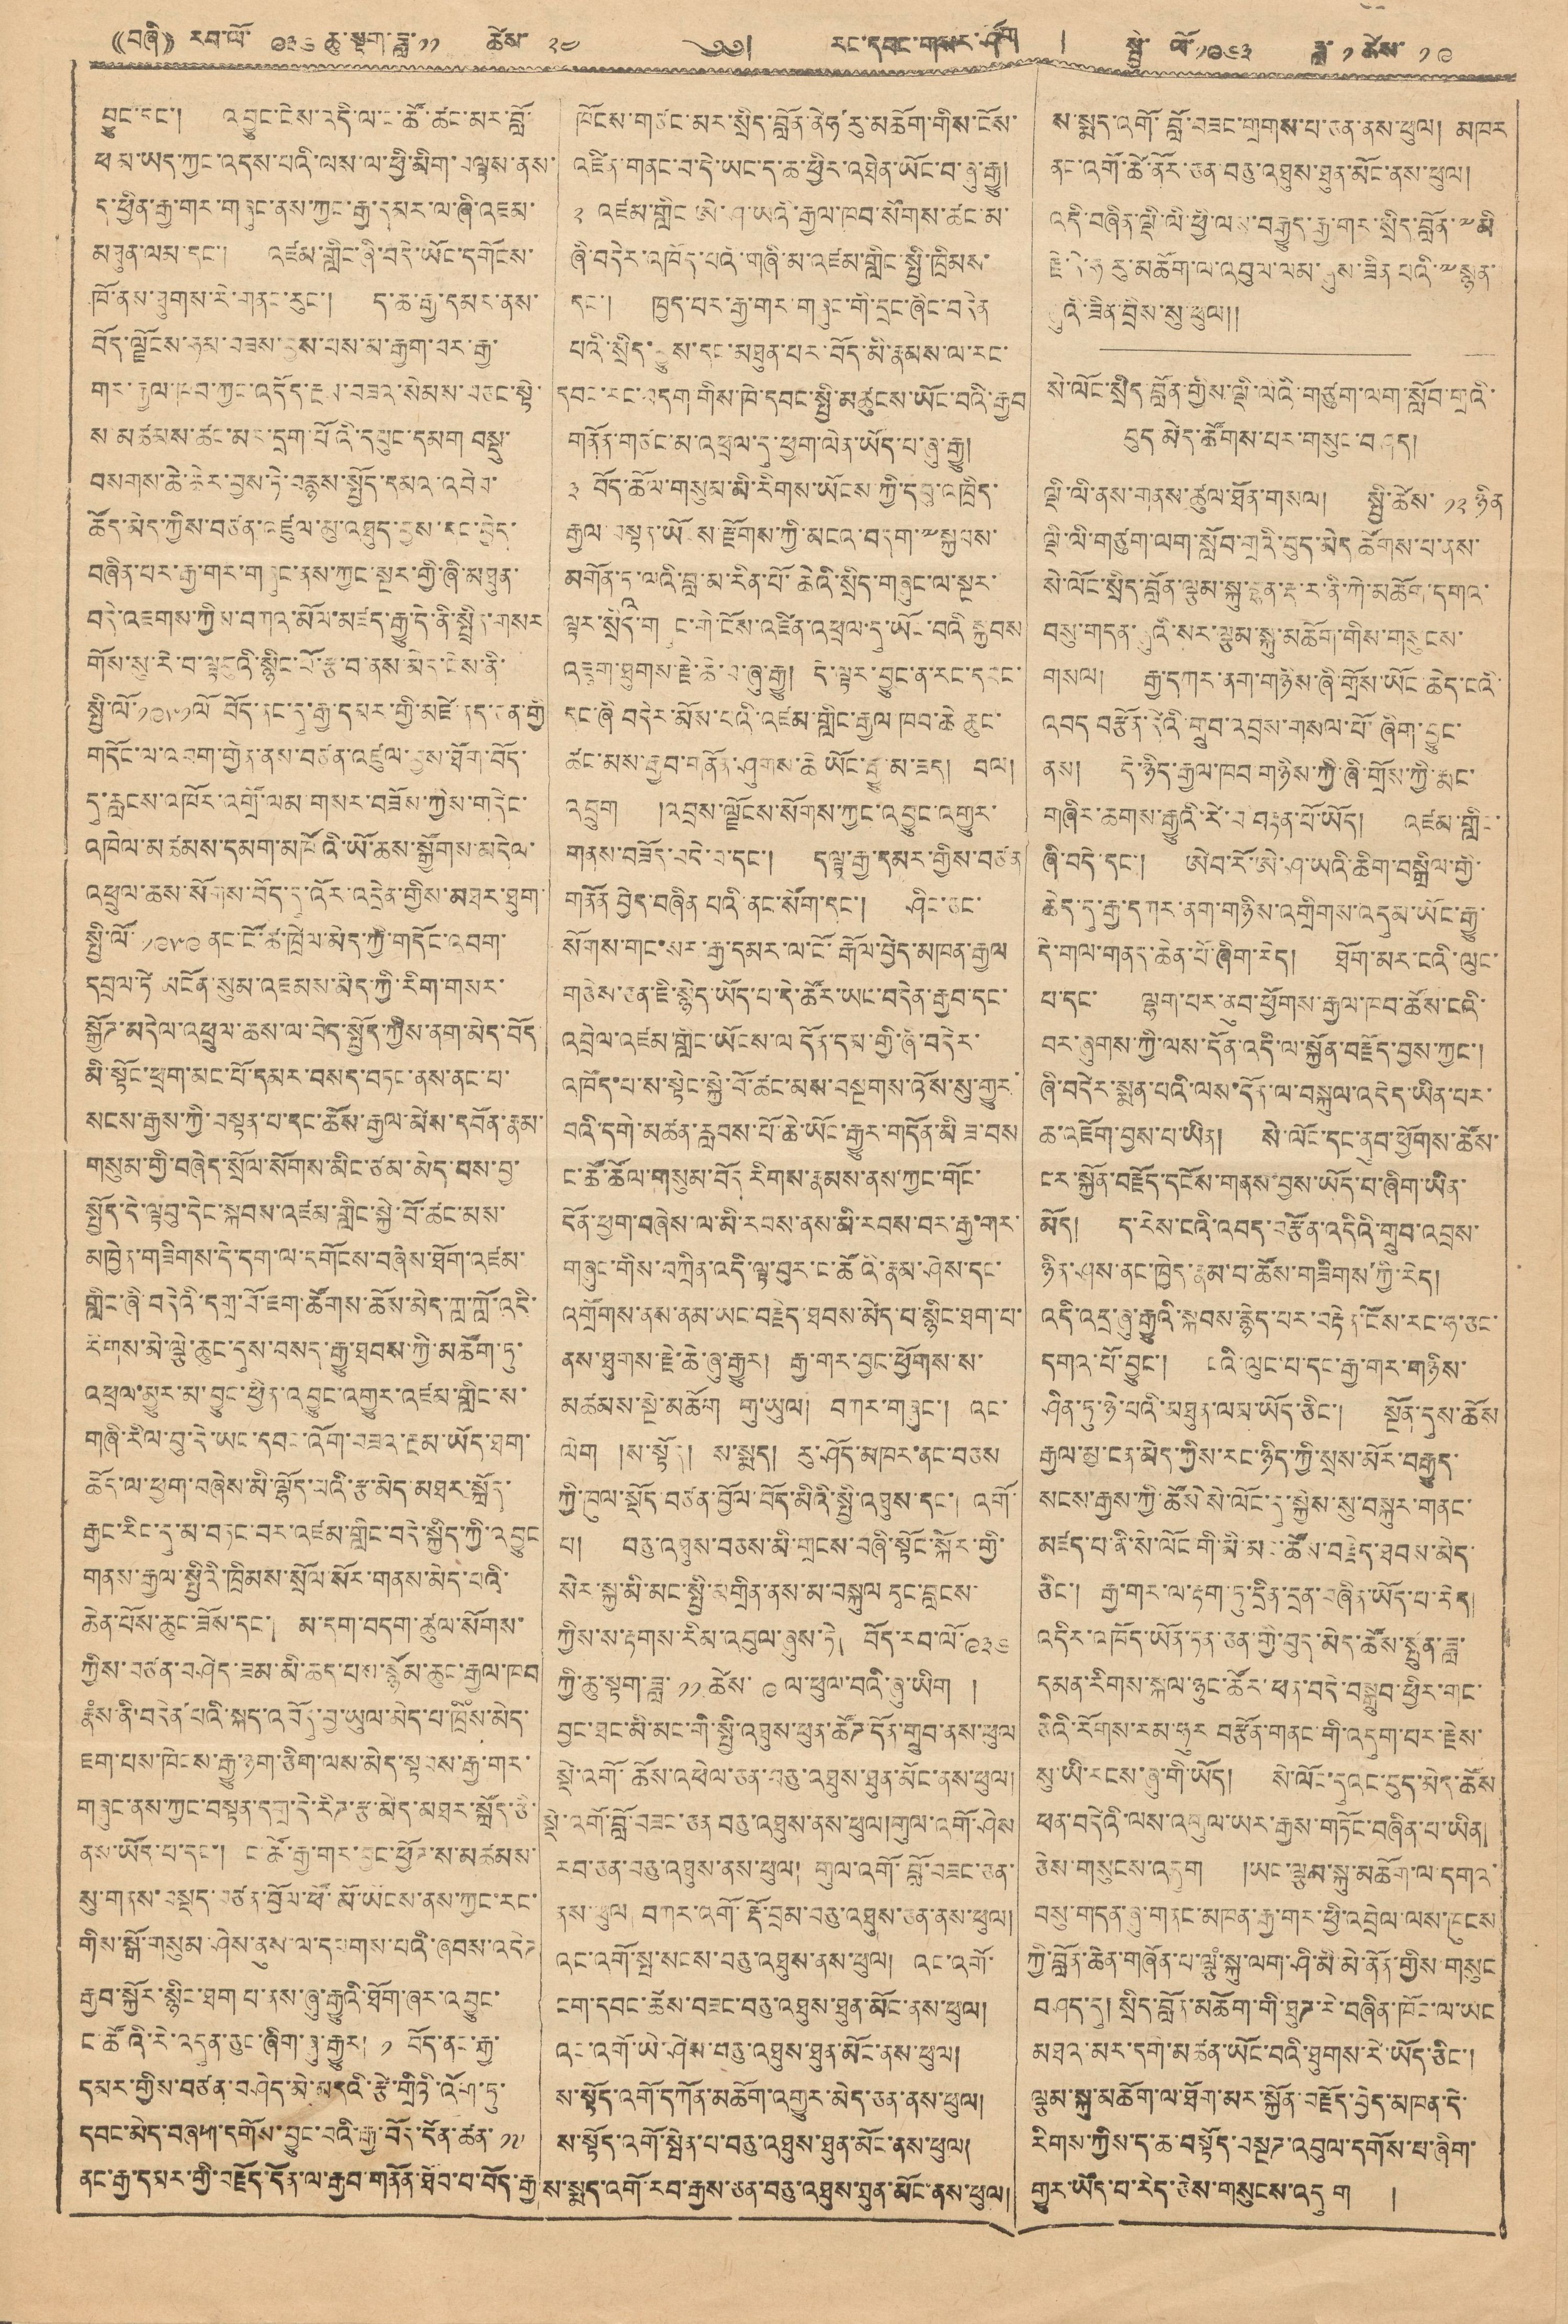((བཞི་)) རབ་ལོ་ ༩༣༦ ཆུ་སྟག་ཟླ་ ༡༡ ཚེས་ ༢༤ ༄༅། རང་དབང་གསར་ཤོག ། སྤྱི་ལོ་ ༡༩༦༣ ཟླ་ ༡ ཚེས་ ༡༩
བྱུང་དང་། འབྱུང་ངེས་འདི་ལ་ང་ཚོ་ཚང་མར་བློ་
ཕམ་ཡད་ཀྱང་འདས་པའི་ལས་ལ་ཕྱི་མིག་བལྟས་ནས་
ད་ཕྱིན་རྒྱ་གར་གཞུང་ནས་ཀྱང་རྒྱ་དམར་ལ་ཞི་འཇམ་
མཐུན་ལམ་དང་། འཛམ་གླིང་ཞི་བདེ་ཡོང་དགོངས་
ཁོ་ནས་ཐུགས་རེ་གནང་རུང་། ད་ཆ་རྒྱ་དམར་ནས་
བོད་ལྗོངས་ཧམ་བཟས་བྱས་པས་མ་རྒྱག་བར་རྒྱ་
གར་རྒྱལ་ཁབ་ཀྱང་འདོད་རྔམ་བཟའ་སེམས་བཅང་སྟེ་
ས་མཚམས་ཚང་མར་དྲག་པོའི་དཔུང་དམག བསྡུ་
བསགས་ཆེ་ཆེར་བྱས་ཏེ་བརྙས་སྤྱོད་དམའ་འབེབ་
ཚོད་མེད་ཀྱིས་བཙན་འཛུལ་མུ་འཐུད་བྱས་དང་བྱེད་
བཞིན་པར་རྒྱ་གར་གཞུང་ནས་ཀྱང་སྔར་གྱི་ཞི་མཐུན་
བདེ་འཇགས་ཀྱིས་བཀའ་མོལ་མཛད་རྒྱུ་དེ་ནི་སྤྲིན་གསར
གོས་སུ་རེ་བ་ལྟབུའི་སྙིང་པོ་རྩ་བ་ནས་མེད་ངེས་ནི་
སྤྱི་ལོ་༡༩༥༡ལོ བོད་ནང་དུ་རྒྱ་དམར་གྱི་མཛེ་ནད་ཅན་གྱི
གདོང་ལ་འབག་གྱིན་ནས་བཙན་འཛུལ་བྱས་ཐོག་བོད་
དུ་རླངས་འཁོར་འགྲོ་ལམ་གསར་བཟོས་ཀྱིས་གདེང་
འཁེལ་མཚམས་དམག་མཁོའི་ཡོ་ཆས་སྒྱོགས་མདེལ་
འཕྲུལ་ཆས་སོགས་བོད་དུ་འོར་འདྲེན་གྱིས་མཐར་ཐུག་
སྤྱི་ལོ་ ༡༩༥༩ ནང་ངོ་ཚ་ཁྲེལ་མེད་ཀྱི་གདོང་འབག་
དབྲལ་ཏེ་མངོན་སུམ་འཇམས་མེད་ཀྱི་རིག་གསར་
སྐྱོཊ་མདེལ་འཕྲུལ་ཆས་ལ་བདེ་སྤྱོད་ཀྱིས་ནག་མེད་བོད
མི་སྟོང་ཕྲག་མང་པོ་དམར་བསད་བཏང་ནས་ནང་པ་
སངས་རྒྱས་ཀྱི་བསྟན་པ་དང་ཆོས་རྒྱལ་མེད་དཔོན་རྣམ་
གསུམ་གྱི་བཞེད་སྲོལ་སོགས་མིང་ཙམ་མེད་པས་བྱ་
སྤྱོད་དེ་ལྟབུ་དེང་སྐབས་འཛམ་གླིང་སྐྱེ་བོ་ཚང་མས་
མཁྱེན་གཟིགས་དེ་དག་ལ་དགོངས་བཞིས་ཐོག་འཛམ་
གླིང་ཞི་བདེའི་དགྲ་བོ་ཇག་ཚོགས་ཆོས་མེད་ཀླ་ཀློ་འདི་
རིགས་མེ་ལྕེ་ཆུང་དུས་བསད་རྒྱུ་ཐབས་ཀྱི་མཆོག་ཏུ་
འཕྲལ་མྱུར་མ་བྱུང་ཕྱིན་འབྱུང་འགྱུར་འཛམ་གླིང་ས་
གཞི་རིལ་བུ་དེ་ཡང་དབང་འོག་བཟའ་རྔམ་ཡོད་ཐག་
ཆོད་ལ་ཕྱག་བཞེས་མི་ལྷོད་པའི་རྩ་མེད་མཐར་སྐྲོད་
རྒྱང་རིང་དུ་མ་བཏང་བར་འཛམ་གླིང་བདེ་སྐྱིད་ཀྱི་འབྱུང
གནས་རྒྱལ་སྤྱིའི་ཁྲིམས་སྲོལ་སོར་གནས་མེད་པའི་
ཆེན་པོས་ཆུང་ཟོས་དང་། མ་དག་བདག་ཚུལ་སོགས་
ཀྱིས་བཙན་བཤེད་ཟམ་མི་ཆད་པས་སྙོམ་ཆུང་རྒྱལ་ཁབ
རྣཾས་ནི་བདེན་པའི་སྐད་འབོདུ་བྱ་ཡུལ་མེད་པ་ཁྲིཾས་མེད་
ཇག་པས་ཁེངས་རྒྱུ་ཉག་ཅིག་ལས་མེད་སྟབས་རྒྱ་གར་
གཞུང་ནས་ཀྱང་བསྟན་དགྲ་རིཊ་རྩ་མེད་མཐར་སྐྲོད་ཅི་
ནས་ཡོད་པ་དང་། ང་ཚོ་རྒྱ་གར་བྱང་ཕྱོཊ་ས་མཚམས་
སུ་གནས་བསྡོད་བཙན་བྱོལ་ཕོ་མོ་ཡོངས་ནས་ཀྱང་རང་
གིས་སྒོ་གསུམ་ཤེས་ནུས་ལ་དཔགས་པའི་ཞབས་འདེཊ
རྒྱབ་སྐྱོར་སྙིང་ཐག པ་ནས་ཞུ་རྒྱུའི་ཐོག་ཞར་འབྱུང་
ང་ཚོའི་རེ་འདུན་ཅུང་ཞིག་ཞུ་རྒྱུར། ༡ བོད་ནང་རྒྱ་
དམར་གྱིས་བཙན་བཤེད་མེ་མདའི་རྩེ་གྲིའི་འོག་ཏུ་
དབང་མེད་བཞག་དགོས་བྱུང་བའི་རྒྱ་བོད་དོན་ཚན་ ༡༧
ནང་རྒྱ་དམར་གྱི་བརྗོད་དོན་ལ་རྒྱབ་གནོན་ཐེབ་བ་བོད་རྒྱ
ཁོངས་གཙང་མར་སྲིད་བློན་ནེཧ་རུ་མཆོག་གིས་ངོས་
འཛིན་གནང་བ་དེ་ཡང་ད་ཆ་ཕྱིར་འཐེན་ཡོང་བ་ཞུ་རྒྱུ།
༢ འཛམ་གླིང་ཨེ་ཤ་ཡའི་རྒྱལ་ཁབ་སོགས་ཚང་མ་
ཞི་བདེར་འཁོད་པའི་གཞི་མ་འཛམ་གླིང་སྤྱི་ཁྲིམས་
དང་། ཁྱད་པར་རྒྱ་གར་གཞུང་གི་དྲང་ཞིང་བདེན
པའི་སྲིད་བྱུས་དང་མཐུན་པར་བོད་མི་རྣམས་ལ་རང་
དབང་རང་བདག་གིས་ཁེ་དབང་སྤྱི་མཚུངས་ཡོང་བའི་རྒྱབ
གནོན་གཙང་མ་འཕྲལ་དུ་ཕྱག་ལེན་ཡོད་པ་ཞུ་རྒྱུ།
༣ བོད་ཆོལ་གསུམ་མི་རིགས་ཡོངས་ཀྱི་དབུ་འཁྲིད་
རྒྱལ་བསྟན་ཡོངས་རྫོགས་ཀྱི་མངའ་བདག་༸སྐྱབས་
མགོན་ཏཱ་ལའི་བླ་མ་རིན་པོ་ཆེའི་སྲིད་གཞུང་ལ་སྔར་
ལྟར་སྲིད་གཞུང་གི་ངོས་འཛིན་འཕྲལ་དུ་ཡོང་བའི སྐྱབས
འཇུག་ཐུགས་རྗེ་ཆེ་བ་ཞུ་རྒྱུ། དེ་ལྟར་བྱུང་ན་རང་དབང་
དང་ཞི བདེར་མོས་པའི་འཛམ་གླིང་རྒྱལ ཁབ་ཆེ་ཆུང་
ཚང་མས་རྒྱབ་གནོན་ཤུགས་ཆེ ཡོང་རྒྱུ་མ་ཟད། བལ།
འབྲུག །འབྲས་ལྗོངས་སོགས་ཀྱང་འབྱུང་འགྱུར་
གནས་བཟོད་བདེ་བ་དང་། དལྟ་རྒྱ་དམར་གྱིས་བཙན་
གནོན བྱེད་བཞིན པའི་ནང་སོག་དང་། ཤིང་ཅང་
སོགས་གང་སར་རྒྱ་དམར་ལ་ངོ་རྒོལ་བྱེད་མཁན་རྒྱལ
གཅེས་ཅན་ཀི་རྙེད་ཡོད་པ་དེ་ཚོར་ཡང་བདེན་རྒྱབ་དང་
འབྲེལ་འཛམ་གླིང་ཡོངས་ལ དོན་དམ་གྱི་ཞི་བདེར་
འཁོད་པ་ས་སྟེང་སྐྱེ་བོ་ཚང་མས་བསྔགས་འོས་སུ་གྱུར་
བའི་དགེ་མཚན་རླབས་པོ་ཆེ་ཡོང་རྒྱུར་གདོན་མི ཟ་བས
ང་ཚོ་ཆོལ་གསུམ་བོད རིགས་རྣམས་ནས་ཀྱང་གོང་
དོན་ཕྱག་བཞེས་ལ་མི་རབས་ནས་མི་རབས་བར་རྒྱ་གར་
གཞུང་གིས་བཀྲིན་འདི་ལྟ་བུར་ང་ཚོའི་རྣམ་ཤེས་དང་
འགྲོགས་ནས་ནམ་ཡང་བརྗེད་ཐབས་མེད་པ་སྙིང་ཐག་པ་
ནས་ཐུགས་རྗེ་ཆེ་ཞུ་རྒྱུར། རྒྱ་གར་བྱང་ཕྱོགས་ས་
མཚམས་སྔེ་མཆོག གུ་ཡུལ། བཀར་གཞུང་། འང་
ལེག །ས་སྟོད། ས་སྨད། རུ་ཤོད་མཁར་ནང་བཅས
ཀྱི་ཁུལ་སྡོད་བཙན་བྱོལ་བོད་མིའི་སྤྱི་འཐུས་དང་། འགོ་
པ། བཅུ་མཐུས་བཅས་མི་གྲངས་བཞི་སྟོང་སྐོར་གྱི་
སེར་སྐྱ་མི་མང་སྤྱི་མགྲིན་ནས་མ་བསྐུལ དྭང་བླངས་
ཀྱིས་ས་རྟགས་རིམ་འབུལ་ཞུས་ཏེ། བོད་རབ་ལོ ༩༣༦
ཀྱི་ཆུ་སྟག་ཟླ་ ༡༡ ཚེས་ ༩ ལ་ཕུལ་བའི་ཞུ་ཡིག །
བྱང་ཐང་མི་མང་གི་སྤྱི་འཐུས་ཕུན་ཚོཊ་དོན་གྲུབ་བས་ཕུལ
སྡེ་འགོ་ཆོས་འཕེལ་ཅན་བཅུ་འཐུས་ཐུན་མོང་ནས་ཕུལ།
སྡེ་འགོ་བློ་བཟང་ཅན་བཅུ་འཐུས་ནས་ཕུལ།གུལ་འགོ་ཤེས
རབ་ཅན་བཅུ་འཐུས་ནས་ཕུལ། གུལ་འགོ་བློ་བཟང་ཅན་
ནས་ཕུལ བཀར་འོག་རྡོ་བྲམ་བཅུ་འཐུས་ཅན་ནས་ཕུལ།
འང་འགོ་སྤ་སངས་བཅུ་འཐུས་ནས་ཕུལ། འང་འགོ་
ངག་དབང་ཆོས་བཟང་བཅུ་འཐུས་ཐུན་མོང་ནས་ཕུལ།
འང་འགོ་ཡེ་ཤེས་བཅུ་འཐུས་ཐུན་མོང་ནས་ཕུལ།
ས་སྟོད་འགོ་དཀོན་མཆོག་འགྱུར་མེད་ཅན་ནས་ཕུལ།
ས་སྟོད་འགོ་སྤེན་པ་བཅུ་འཐུས་ཐུན་མོང་ནས་ཕུལ།
ས་སྨད་འགོ་རབ་རྒྱས་ཅན་བཅུ་འཐུས་ཐུན་མོང་ནས་ཕུལ།
ས་སྨད་འགོ་བློ་བཟང་གྲགས་པ་ཅན་ནས་ཕུལ། མཁར
ནང་འགོ་ཚེ་ནོར་ཅན་བཅུ་འཐུས་ཐུན་མོང་ནས་ཕུལ།
འདི་བཞིན་ལྡི་ལི་ཕྱི་ལས་བརྒྱུད་རྒྱ་གར་སྲིད་བློན་༸མི་
རྗེ་ནེ་ཧ རུ་མཆོག་ལ་འབུལ་ལམ་ཞུས་ཟིན པའི་༸སྙན་
ཞུའི་ཟིན་བྲིས་སུ་ཕུལ༎
སེ་ལོང་སྲིད་བློན་གྱིས་ལྡི་ལིའི་གཙུག་ལག་སློབ་གྲའི་
བུད་མེད་ཚོགས་པར་གསུང་བཤད།
ལྡི་ལི་ནས་གནས་ཚུལ་ཐོན་གསལ། སྤྱི་ཚེས་ ༡༢ ཉིན
ལྡི་ལི་གཙུག་ལག་སློབ་གྲའི་བུད་མེད་ཚོགས་པ་ནས་
སེ་ལོང་སྲིད་བློན་ལྕམ་སྐུ་བྷན་རྡ་ར་ནི་ཀེ་མཆོག་དགའ་
བསུ་གདན་ཞུའི་སར་ལྕམ་སྐུ་མཆོག་གིས་གསུངས་
གསལ། རྒྱ་དཀར་ནག་གཉིས་ཞི་གྲོས་ཡོང་ཆེད་ངའི་
འབད བརྩོན་དེའི་གྲུབ་འབྲས་གསལ་པོ་ཞིག་བྱུང་
ནས། དེ་ཉིད་རྒྱལ་ཁབ་གཉིས་ཀྱི་ཞི་གྲོས་ཀྱི་རྨང་
གཞིར་ཆགས་རྒྱུའི་རེ་བ་བརྟན་པོ་ཡོད། འཛམ་གླིང་
ཞི་བདེ་དང་། ཨེབ་རོ་ཨེ་ཤ་ཡའི་ཆིག་བསྒྲིལ་གྱི་
ཆེད་དུ་རྒྱ་དཀར་ནག་གཉིས་འགྲིགས་འདུམ་ཡོང་རྒྱུ་
དེ་གལ་གནད་ཆེན་པོ་ཞིག་རེད། ཐོག་མར་ངའི་ལུང་
པ་དང་། ལྷག་པར་ནུས་ཕྱོགས་རྒྱལ་ཁབ་ཚོས་ངའི་
བར་ཞུགས་ཀྱི་ལས་དོན་འདི་ལ་སྐྱོན་བརྗོད་བྱས་ཀྱང་།
ཞི་བདེར་སྨན་པའི་ལས་དོན་ལ་བསྐུལ་འདེད་ཡིན་པར་
ཆ་འཇོག་བྱས་ཡིན། སེ་ལོང་དང་ནུབ་ཕྱོགས་ཚོས་
ངར་སྐྱོན་བརྗོད་དངོས་གནས་བྱས་ཡོད་པ་ཞིག་ཡིན་
མོད། ད་རེས་ངའི་འབད་བརྩོན་འདིའི་གྲུབ་འབྲས་
ཉིན་ཤས་ནང་ཁྱེད་རྣམ་བ་ཚོས་གཟིགས་ཀྱི་རེད།
འདི་འདྲ་ཞུ་རྒྱུའི་སྐབས་རྙེད་པར་བརྟེན་ངོས་རང་ཧ་ཅང་
དགའ་པོ་བྱུང་། ངའི་ལུང་པ་དང་རྒྱ་གར་གཉིས་
ཤིན་ཏུ་ཉེ་པའི་མཐུན་ལམ་ཡོད་ཅིང་། སྔོན་དུས་ཆོས
རྒྱལ་མྱ་ངན་མེད་ཀྱིས་རང་ཉིད་ཀྱི་སྲས་མོར་བརྒྱུད་
སངས་རྒྱས་ཀྱི་ཆོས་སེ་ལོང་དུ་སྐྱེས་སུ་བསྐུར་གནང་
མཛད་པ་ནི་སེ་ལོང་གི་མི་མང་ཚོས་བརྗེད་ཐབས་མེད་
ཅིང་། རྒྱ་གར་ལ་རྟག་ཏུ་དྲིན་བཞིན་ཡོད་པ་རེད།
འདིར་འཁོད་ཡོན་ཏན་ཅན་གྱི་བུད་མེད་ཆོས་སྤུན་ཟླ་
དམན་རིགས་སྐལ་ཉུང་ཚོར་ཕན་བདེ་བསྒྲུབ་ཕྱིར་གང་
ཅིའི་རོགས་རམ་ཧུར བརྩོན་གནང་གི་འདུག་པར་རྗེས་
སུ་ཡི་རངས་ཞི་གི་ཡོད། སེ་ལོང་དུའང་ངུད་མེད་ཆོས་
ཕན་བདེའི་ལས་འགུལ་ཡར་རྒྱས་གཏོང་བཞིན་པ་ཡིན།
ཅེས་གསུངས་འདུག །ཡང་ལྕམ་སྐུ་མཆོག་ལ་དགའ་
བསུ་གདན་ཞུ་གནང་མཁན་རྒྱ་གར་ཕྱི་འབྲེལ་ལས་ཁུངས
ཀྱི་བློན་ཆེན་གཞོན་པ་ལྕཾ་སྐུ་ལག་ཤི་མི་མེ་ནོན་གྱིས་གསུང
བཤད་དུ། སྲིད་བློན་མཆོག་གི་ཐུཊ་ཏེ་བཞིན་ཁོང་ལ་ཡང
མཐའ་མར་དགེ་མཚན་ཡོང་བའི་ཐུགས་རེ་ཡོད་ཅིང་།
སྕམ་སྐུ་མཆོག་ལ་ཐོག་མར་སྐྱོན་བརྗོད་བྱེད་མཁན་དེ་
རིགས་ཀྱིས་ད་ཆ་བསྟོད་བསྔཊ་འབུལ་དགོས་པ་ཞིག་
གྱུར་ཡོད་པ་རེད་ཅེས་གསུངས་འདུག །
